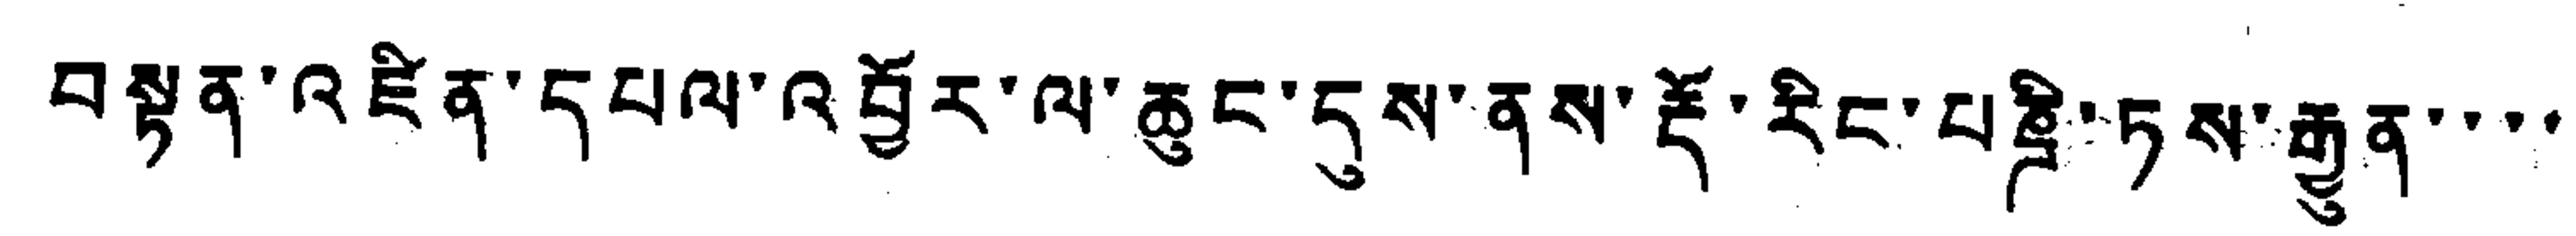བསྟན་འཛིན་དཔལ་འབྱོར་ལ་ཆུང་དུས་ནས་རྡོ་རིང་པཎྜི་ཏས་རྒྱུན་་་་
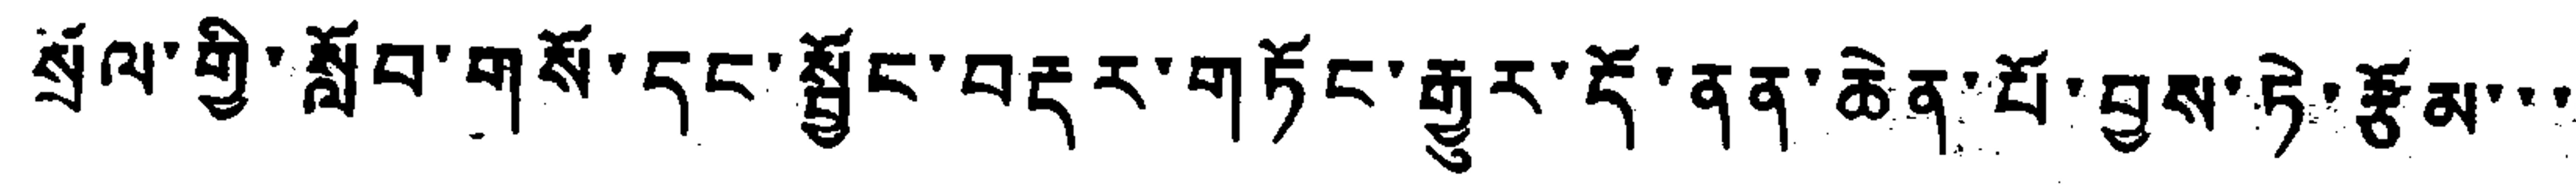སྲོལ་གྱི་སློབ་གསོ་དང་སྦྱོང་བརྡར་གཏོང་རྒྱུར་དོ་ནན་ཆེན་པོ་བྱས་ཏེ་རྩོམ་་་
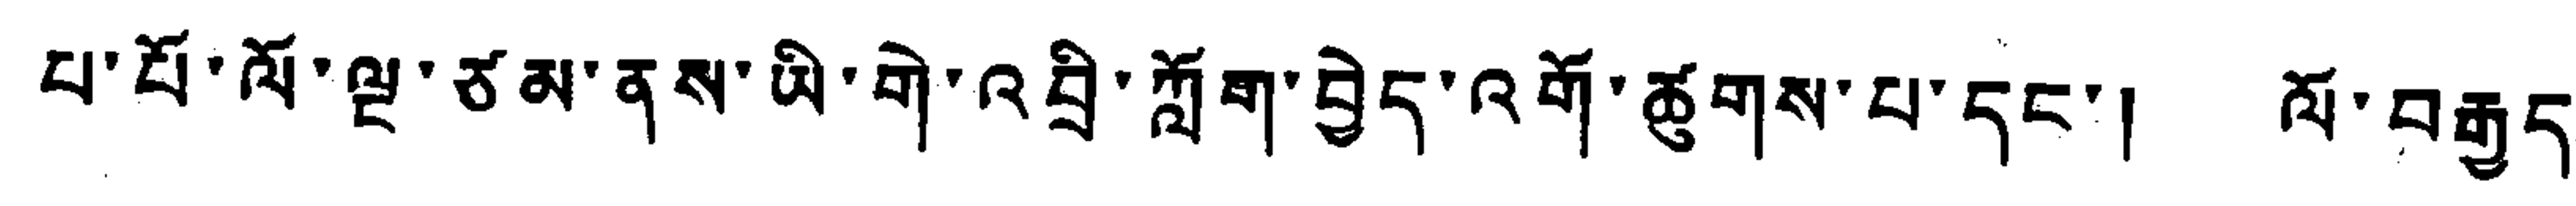པ་པོ་ལོ་ལྔ་ཙམ་ནས་ཡི་གེ་འབྲི་ཀློག་བྱེད་འགོ་ཚུགས་པ་དང་། ལོ་བརྒྱད་
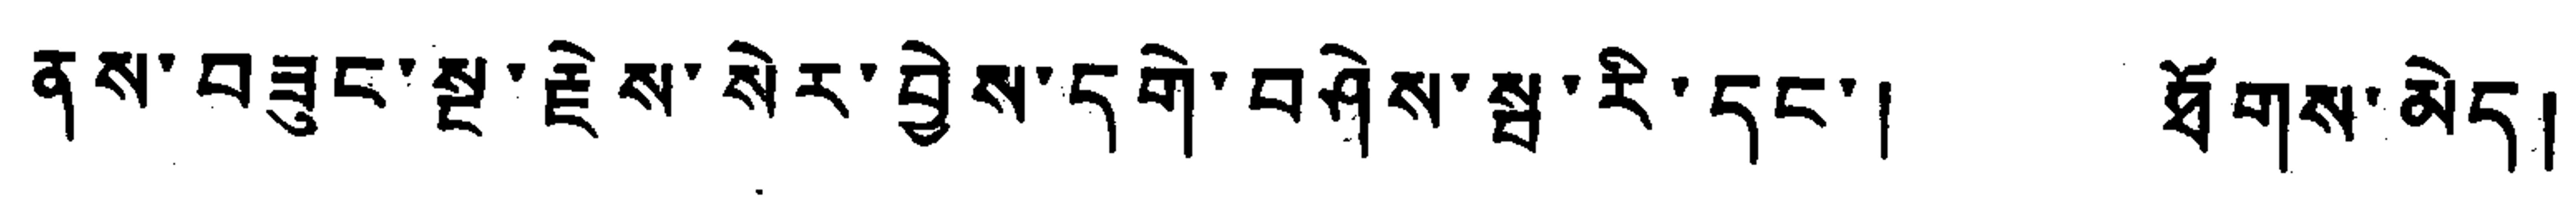ནས་བཟུང་སྔ་རྗེས་སེར་བྱེས་དགེ་བཤེས་སྦ་རི་དང་། ཐོགས་མེད།
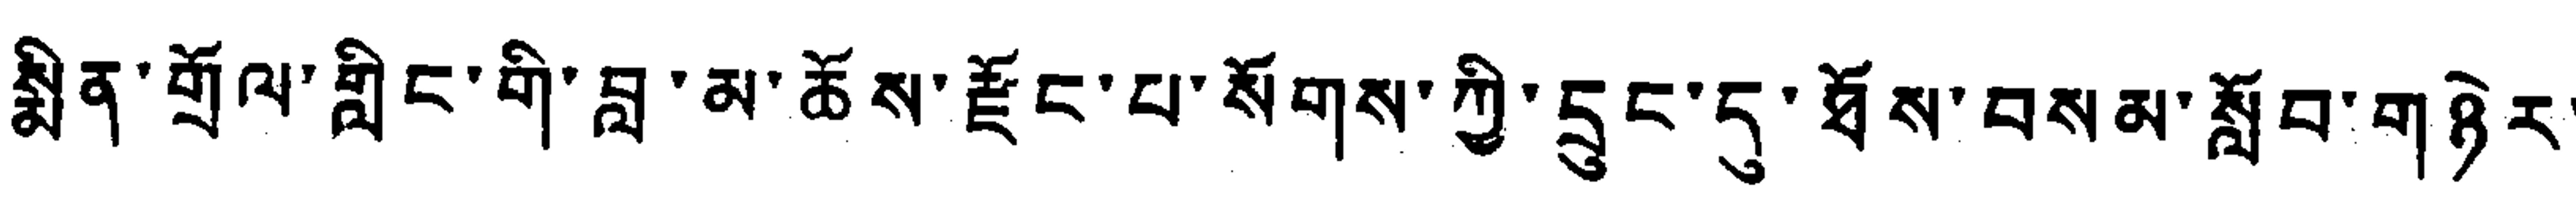སྨིན་གྲོལ་གླིང་གི་བླ་མ་ཆོས་རྫོང་པ་སོགས་ཀྱི་དྲུང་དུ་ཐོས་བསམ་སློབ་གཉེར་
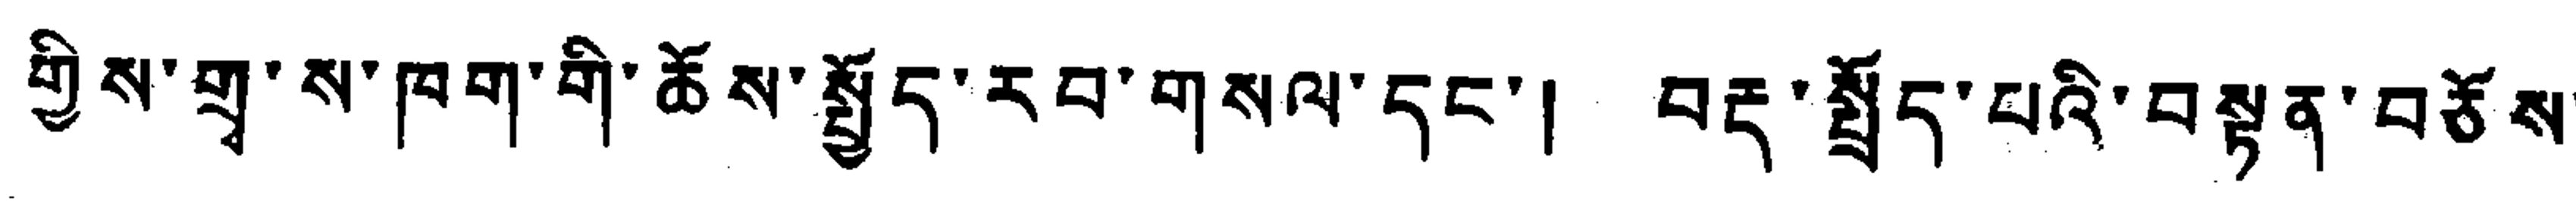གྱིས་གྲྭ་ས་ཁག་གི་ཆོས་སྤྱོད་རབ་གསལ་དང་། བད་སྤྲོད་པའི་བསྟན་བཅོས་
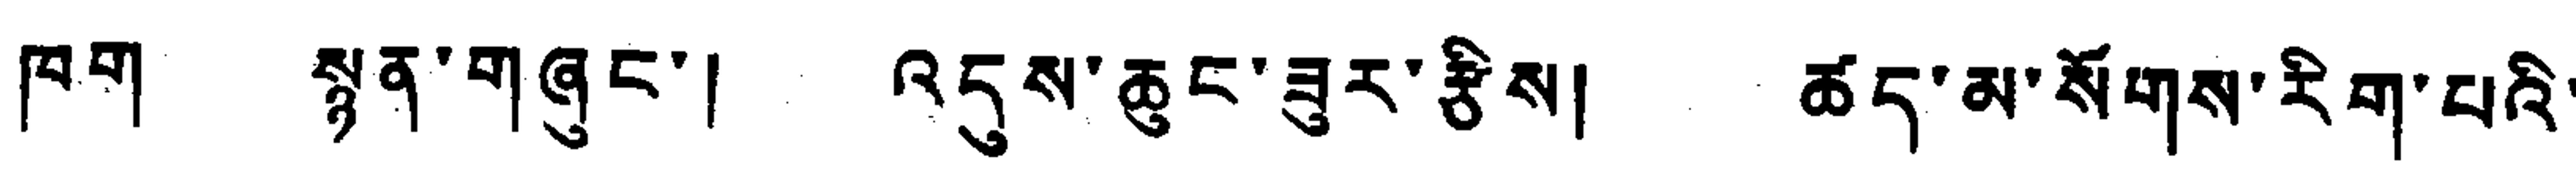ཁག སྙན་གཞུང་། འདུས་ཆུང་ཟུར་རྩིས། ཚད་མ་སོགས་རིག་པའི་
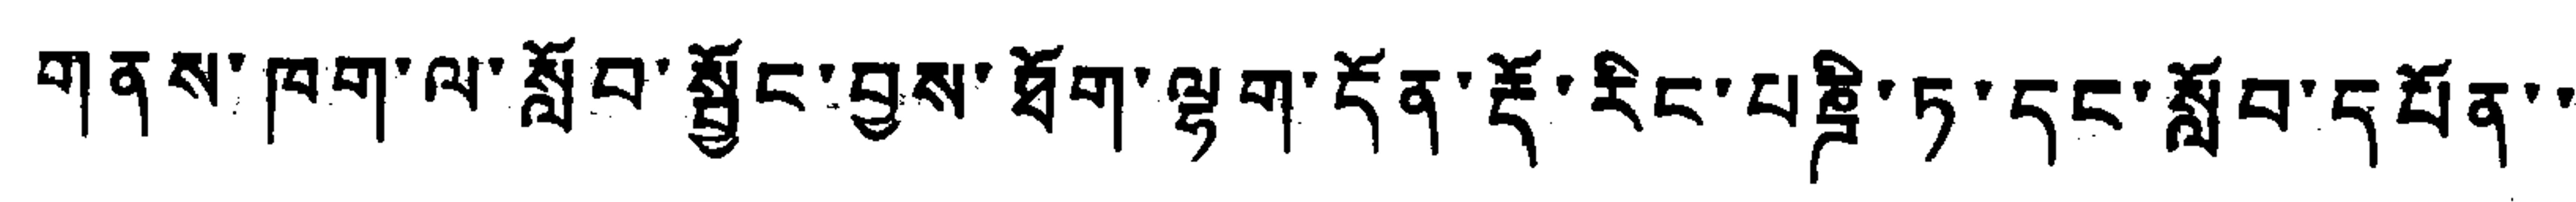གནས་ཁག་ལ་སློབ་སྦྱོང་བྱས་ཐོག་ལྷག་དོན་རྡོ་རིང་པཎྜི་ཏ་དང་སློབ་དཔོན་་
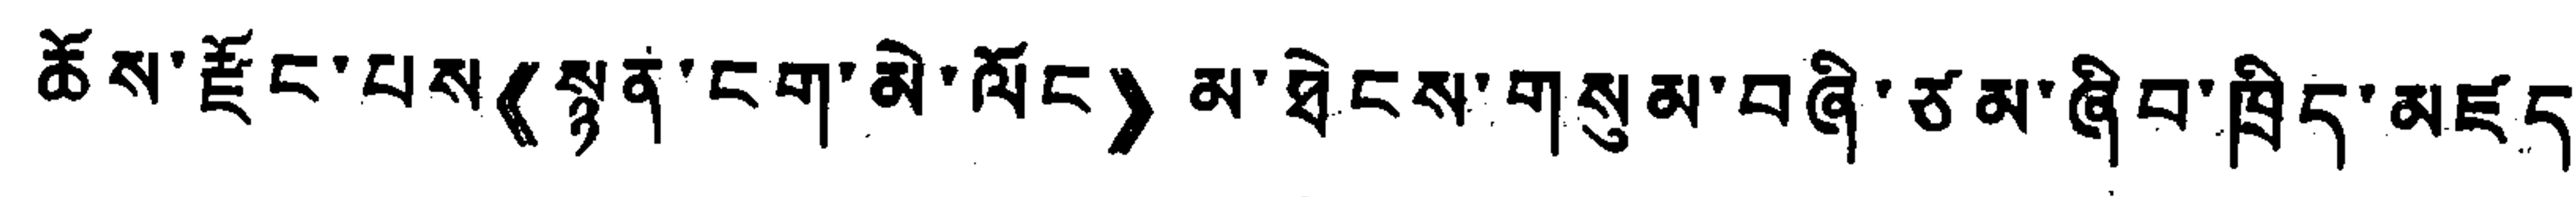ཆོས་རྫོང་པས 《སྙན་ངག་མེ་ལོང》 མ་ཐེངས་གསུམ་བཞི་ཙམ་ཞིབ་ཁྲིད་མཛད་
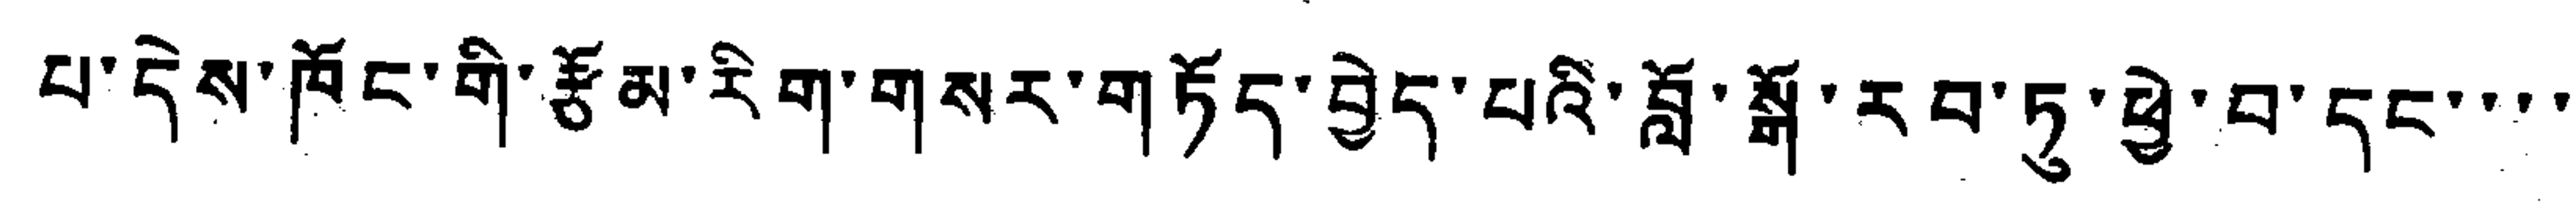པ་དེས་ཁོང་གི་རྩོམ་རིག་གསར་གཏོད་བྱེད་པའི་བློ་སྒོ་རབ་ཏུ་ཕྱེ་བ་དང་་་་
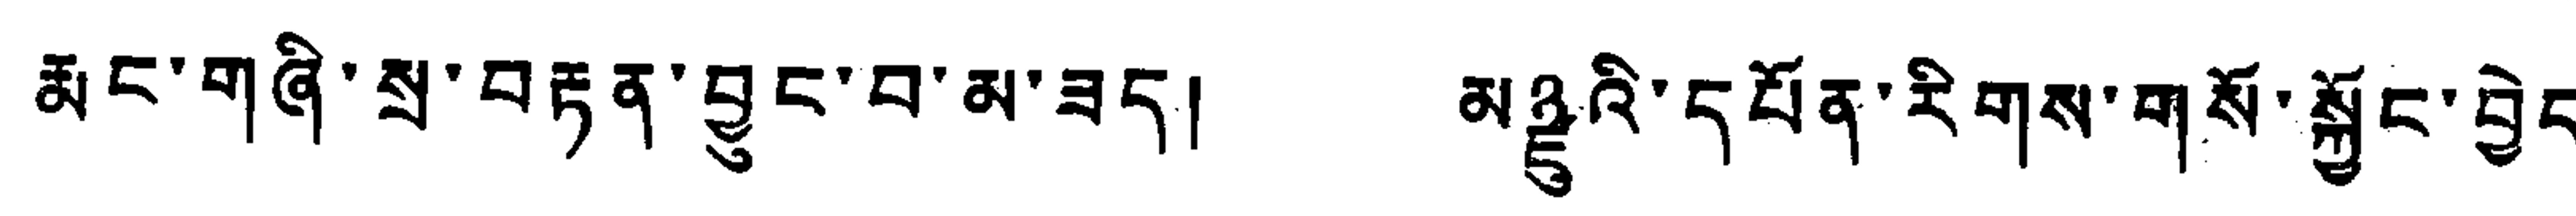རྨང་གཞི་སྲ་བརྟན་བྱུང་བ་མ་ཟད། མཉྫུའི་དཔོན་རིགས་གསོ་སྐྱོང་བྱེད་
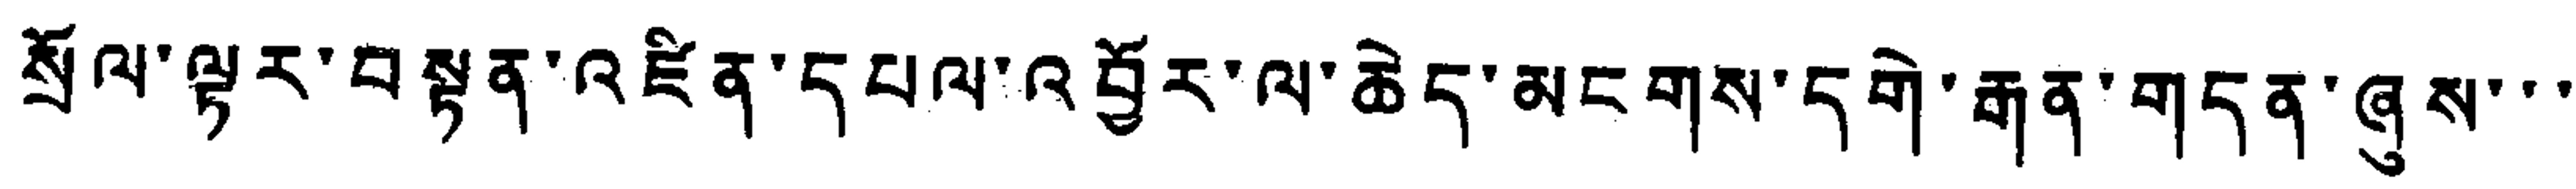སྲོལ་ལྟར་བསྟན་འཛིན་དཔལ་འབྱོར་ལ་ཆེད་མངགས་དགེ་རྒན་གདན་ཞུས་་་
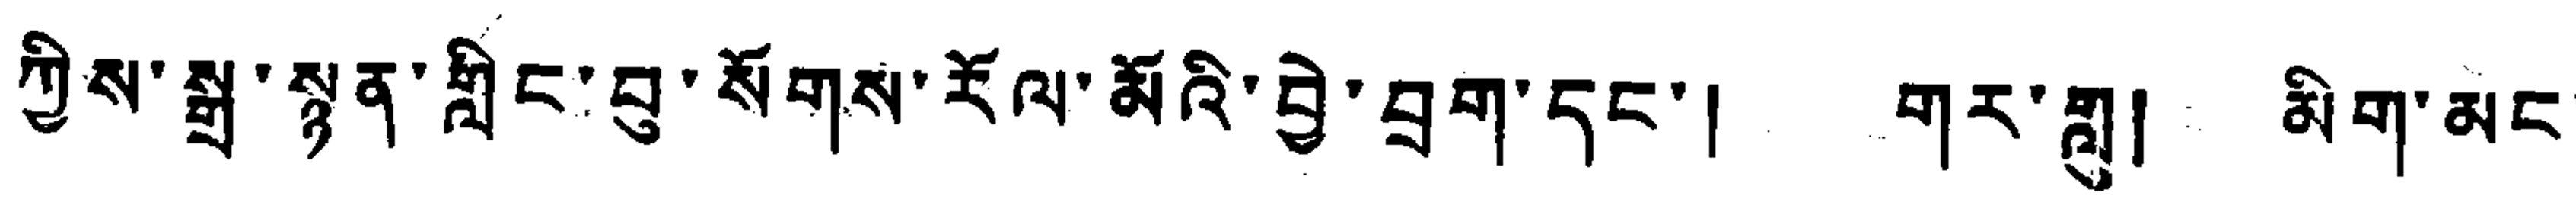ཀྱིས་སྐུ་སྙན་གླིང་བུ་སོགས་རོལ་མོའི་བྱེ་བྲག་དང་། གར་གླུ། མིག་མང་
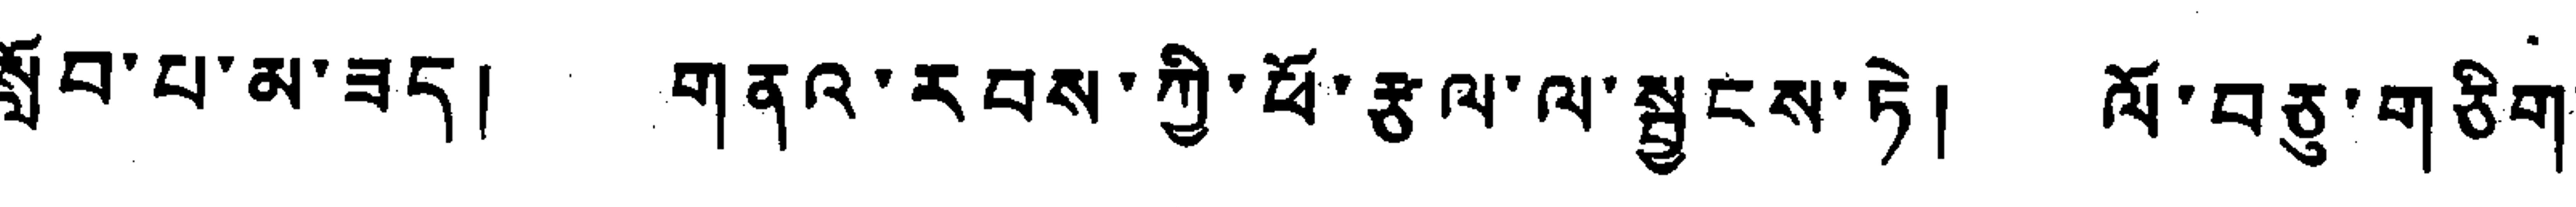སློབ་པ་མ་ཟད། གནའ་རབས་ཀྱི་ཕོ་རྩལ་ལ་སྦྱངས་ཏེ། ལོ་བཅུ་གཅིག་
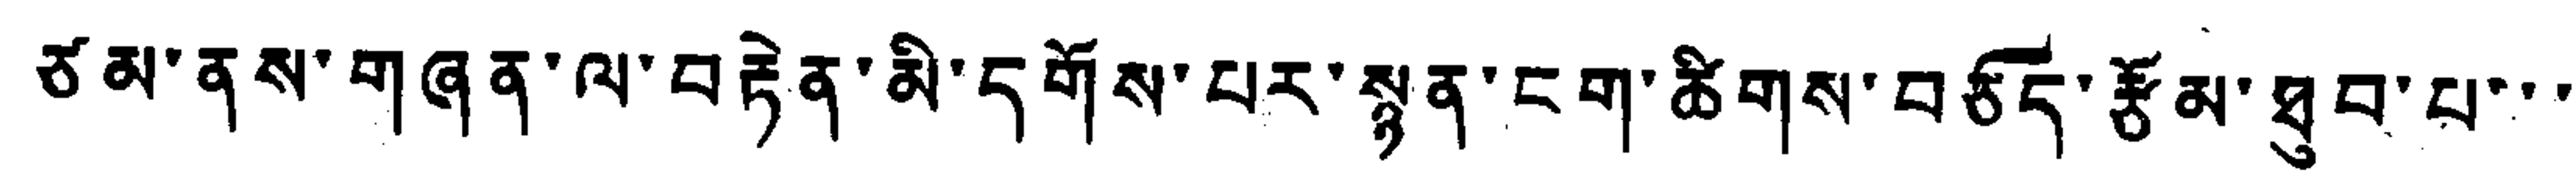ཙམ་ནས་གཞན་ལ་བརྟེན་མི་དགོས་པར་སྙན་ངག་ཚིགས་བཅད་རྩོམ་ཐུབ་པ་་་
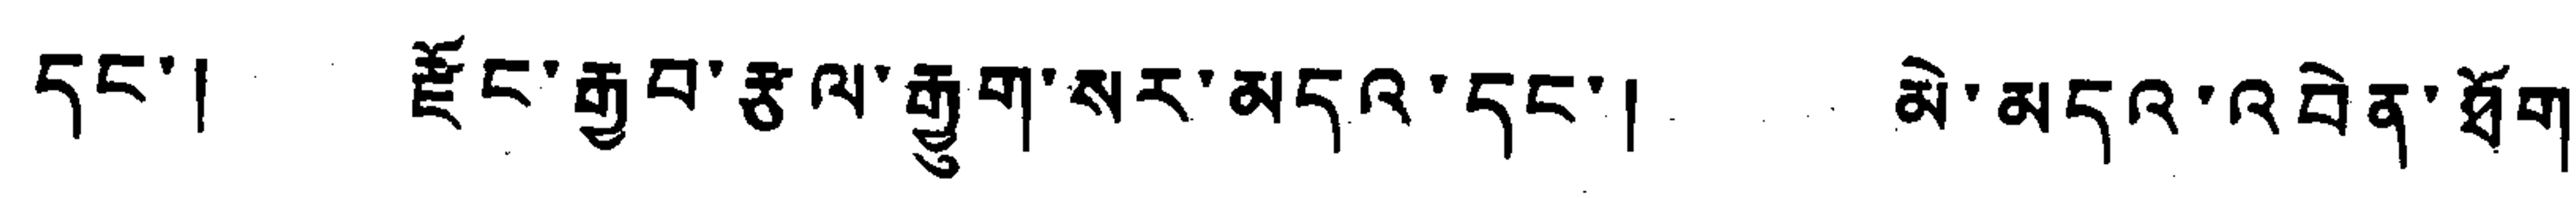དང་། རྫོང་རྒྱབ་རྩལ་རྒྱུག་སར་མདའ་དང་། མེ་མདའ་འབེན་ཐོག་
